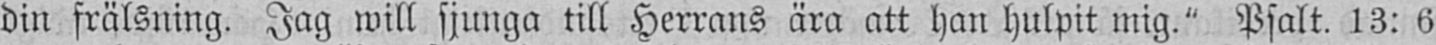din frälsning. Jag will sjunga till Herrans ära att han hulpit mig." Psalt. 13: 6
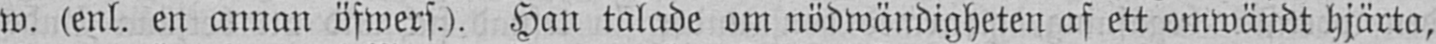w. (enl. en annan öfwers.). Han talade om nödwändigheten af ett omwändt hjärta,
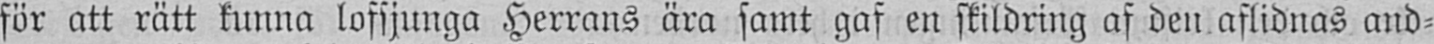för att rätt kunna lofsjunga Herrans ära samt gaf en skildring af den aflidnas and-
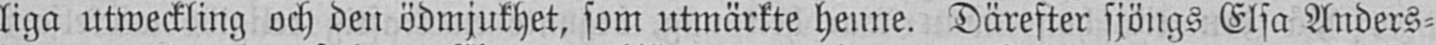liga utweckling och den ödmjukhet, som utmärkte henne. Därefter sjöngs Elsa Anders-
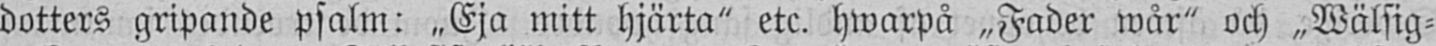dotters gripande psalm: "Eja mitt hjärta" etc. hwarpå „Fader wår" och „Wälsig-
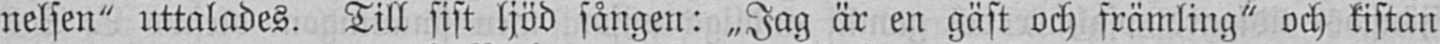nelsen" uttalades. Till sist ljöd sången: „Jag är en gäst och främling" och kistan
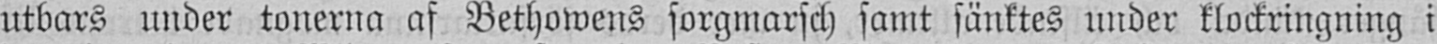utbars under tonerna af Bethowens sorgmarsch samt sänktes under klockringning i
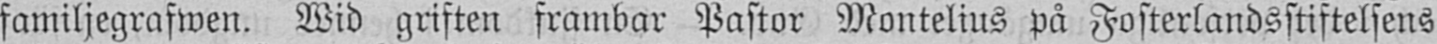familjegrafwen. Wid griften frambar Pastor Montelius på Fosterlandsstiftelsens
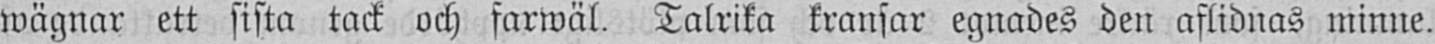wägnar ett sista tack och farwäl. Talrika kransar egnades den aflidnas minne.
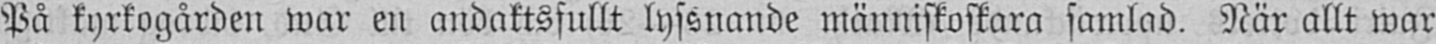På kyrkogården war en andaktsfullt lyssnande människoskara samlad. När allt war
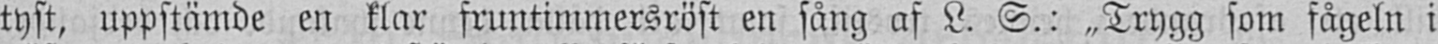tyst, uppstämde en klar fruntimmersröst en sång af L. S.: "Trygg som fågeln i
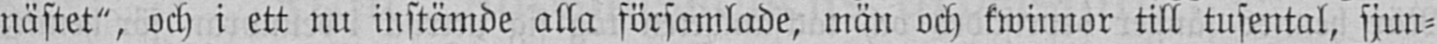nästet", och i ett nu instämde alla församlade, män och kwinnor till tusental, sjun-
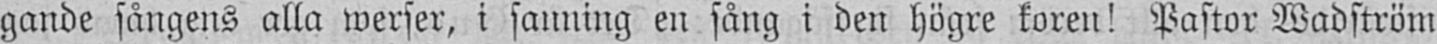gande sångens alla werser, i sanning en sång i den högre koren! Pastor Wadström
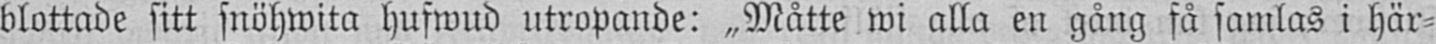blottade sitt snöhwita hufwud utropande: „Måtte wi alla en gång få samlas i här-
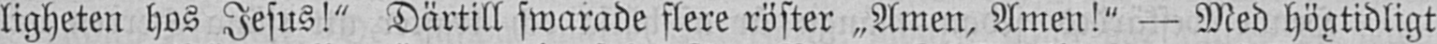ligheten hos Jesus!" Därtill swarade flere röster „Amen, Amen!" — Med högtidligt
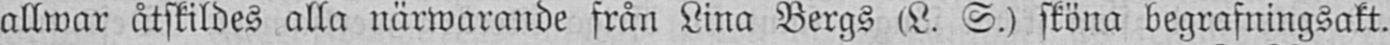allwar åtskildes alla närwarande från Lina Bergs (L. S.) sköna begrafningsakt.
